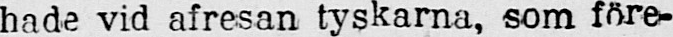hade vid afresan tyskarna, som före-
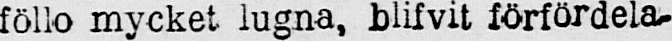föllo mycket lugna, blifvit förfördela-
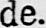de.
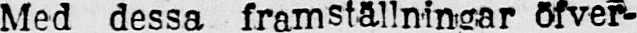Med dessa framställningar öfver-
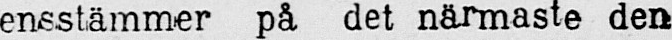ensstämmer på det närmaste den
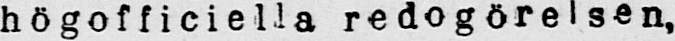högofficiella redogörelsen,
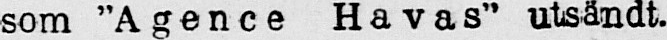som ”Agence Havas” utsändt.
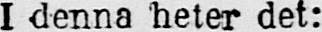I denna heter det:
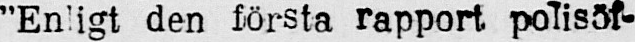”Enligt den första rapport polisöf-
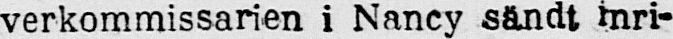verkommissarien i Nancy sändt inri-
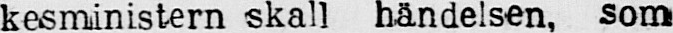kesministern skall händelsen, som
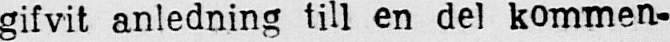gifvit anledning till en del kommen-
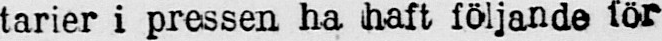tarier i pressen ha haft följande för
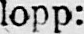lopp:
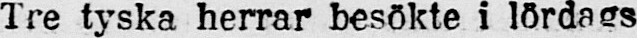Tre tyska herrar besökte i lördags
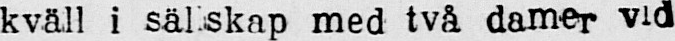kväll i sällskap med två damer vid
